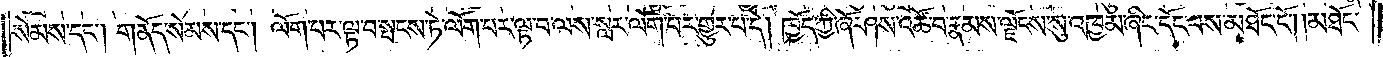སེམས་དང༌། གནོད་སེམས་དང༌། ལོག་པར་ལྟ་བ་སྤངས་ཏེ་ལོག་པར་ལྟ་བ་ལས་སླར་ལོག་པར་གྱུར་བ་དེ། ཁྱོད་ཀྱི་ཞོ་ཤས་འཚོ་བ་རྣམས་ལྗོངས་སུ་འཁྱམ་ཞིང་དོང་བས་མཐོང་ངོ༌། །མཐོང་
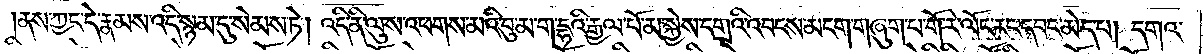ནས་ཀྱང་དེ་རྣམས་འདི་སྙམ་དུ་སེམས་ཏེ། འདི་ནི་ལུས་འཕགས་མའི་བུ་མ་ག་དྷའི་རྒྱལ་པོ་མ་སྐྱེས་དགྲའི་འབངས་མངག་གཞུག་པ་གོ་རེ་ལོང་རང་དབང་མེད་པ། དགའ་
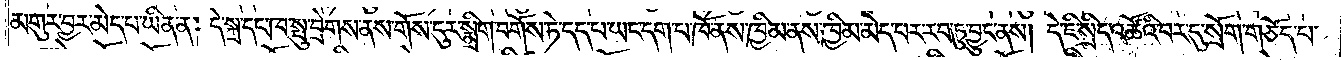མགུར་བྱར་མེད་པ་ཡིན་ན། དེ་སྐྲ་དང་ཁ་སྤུ་བྲེགས་ནས་གོས་ངུར་སྨྲིག་བགོས་ཏེ་དད་པ་ཡང་དག་པ་ཁོ་ནས་ཁྱིམ་ནས་ཁྱིམ་མེད་པར་རབ་ཏུ་བྱུང་ནས། དེ་ཇི་སྲིད་འཚོའི་བར་དུ་སྲོག་གཅོད་པ་
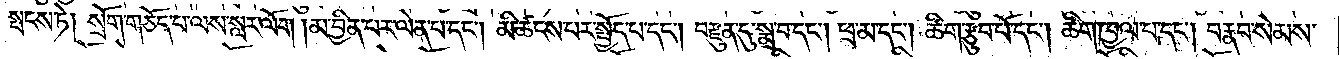སྤངས་ཏེ། སྲོག་གཅོད་པ་ལས་སླར་ལོག །མ་བྱིན་པར་ལེན་པ་དང༌། མི་ཚངས་པར་སྤྱོད་པ་དང༌། བརྫུན་དུ་སྨྲ་བ་དང༌། ཕྲ་མ་དང༌། ཚིག་རྩུབ་པོ་དང༌། ཚིག་ཁྱལ་པ་དང༌། བརྣབ་སེམས་
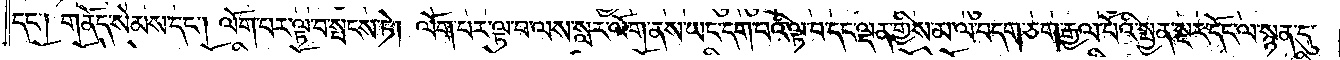དང༌། གནོད་སེམས་དང༌། ལོག་པར་ལྟ་བ་སྤངས་ཏེ། ལོག་པར་ལྟ་བ་ལས་སླར་ལོག་ནས་ཡང་དག་པའི་ལྟ་བ་དང་ལྡན་གྱིས་མ་ལ་བདག་ཅག་རྒྱལ་པོའི་སྤྱན་སྔར་དོང་ལ་སྙན་དུ་
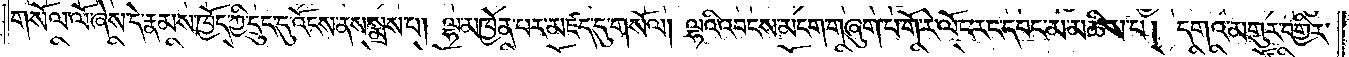གསོལ་ལོ་ཞེས་དེ་རྣམས་ཁྱོད་ཀྱི་དྲུང་དུ་འོངས་ནས་སྨྲས་པ། ལྷ་མཁྱེན་པར་མཛད་དུ་གསོལ། ལྷའི་འབངས་མངག་གཞུག་པ་གོ་རེ་ལོང་རང་དབང་མ་མཆིས་པ། དགའ་མགུར་བགྱིར་
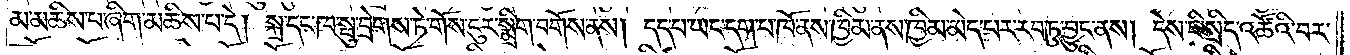མ་མཆིས་པ་ཞིག་མཆིས་པ་དེ། སྐྲ་དང་ཁ་སྤུ་བྲེགས་ཏེ་གོས་ངུར་སྨྲིག་བགོས་ནས། དད་པ་ཡང་དག་པ་ཁོ་ནས་ཁྱིམ་ནས་ཁྱིམ་མེད་པར་རབ་ཏུ་བྱུང་ནས། དེས་ཇི་སྲིད་འཚོའི་བར་
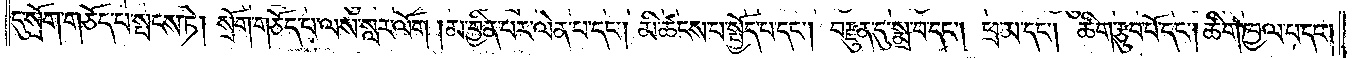དུ་སྲོག་གཅོད་པ་སྤངས་ཏེ། སྲོག་གཅོད་པ་ལས་སླར་ལོག །མ་བྱིན་པར་ལེན་པ་དང༌། མི་ཚངས་པ་སྤྱོད་པ་དང༌། བརྫུན་དུ་སྨྲ་བ་དང༌། ཕྲ་མ་དང༌། ཚིག་རྩུབ་པོ་དང༌། ཚིག་ཁྱལ་པ་དང༌།
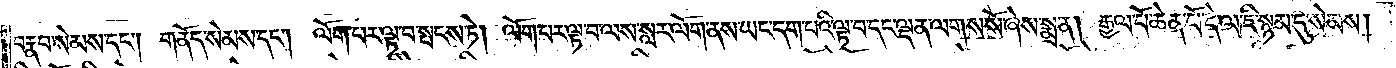བརྣབ་སེམས་དང༌། གནོད་སེམས་དང༌། ལོག་པར་ལྟ་བ་སྤངས་ཏེ། ལོག་པར་ལྟ་བ་ལས་སླར་ལོག་ནས་ཡང་དག་པའི་ལྟ་བ་དང་ལྡན་ལགས་སོ་ཞེས་སྨྲ་ན། རྒྱལ་པོ་ཆེན་པོ་དེ་ལ་ཇི་སྙམ་དུ་སེམས།
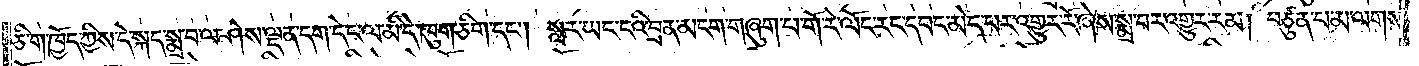ཅི་ག་ཁྱོད་ཀྱིས་དེ་སྐད་སྨྲ་བ་ལ་ཤེས་ལྡན་དག་དེང་ལ་མི་དེ་ཁུག་ཅིག་དང༌། སླར་ཡང་ངའི་བྲན་མངག་གཞུག་པ་གོ་རེ་ལོང་རང་དབང་མེད་པར་འགྱུར་རོ་ཞེས་སྨྲ་བར་འགྱུར་རམ། བཙུན་པ་མ་ལགས་
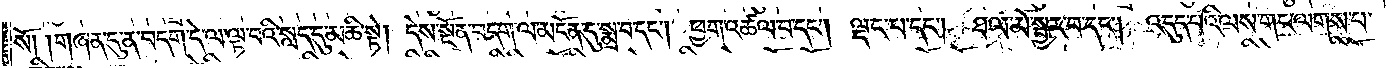སོ། །གཞན་དུ་ན་བདག་དེ་ལ་ལྟ་བའི་སླད་དུ་མཆི་སྟེ། དེས་སྔོན་བདག་ལ་མངོན་དུ་སྨྲ་བ་དང༌། ཕྱག་འཚལ་བ་དང༌། ལྡང་པ་དང༌། ཐལ་མོ་སྦྱར་བ་དང༌། འདུད་པའི་ལས་གང་ལགས་པ་
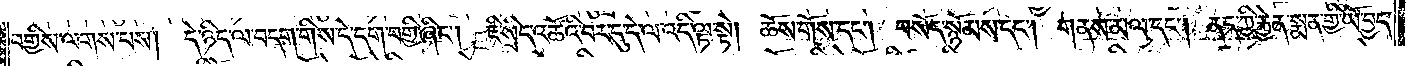བགྱིས་ལགས་པས། དེ་ཉིད་ལ་བདག་གིས་དེ་དག་བགྱི་ཞིང༌། ཇི་སྲིད་འཚོའི་བར་དུ་དེ་ལ་འདི་ལྟ་སྟེ། ཆོས་གོས་དང༌། བསོད་སྙོམས་དང༌། གནས་མལ་དང༌། ནད་ཀྱི་རྐྱེན་སྨན་གྱི་ཡོ་བྱད་
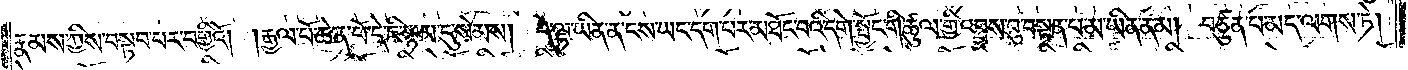རྣམས་ཀྱིས་བསྟབ་པར་བགྱིའོ། །རྒྱལ་པོ་ཆེན་པོ་དེ་ཇི་སྙམ་དུ་སེམས། དེ་ལྟ་ཡིན་ན་ངས་ཡང་དག་པར་མཐོང་བའི་དགེ་སྦྱོང་གི་ཚུལ་གྱི་འབྲས་བུ་བསྟན་པ་མ་ཡིན་ནམ། བཙུན་པ་མད་ལགས་ཏེ།
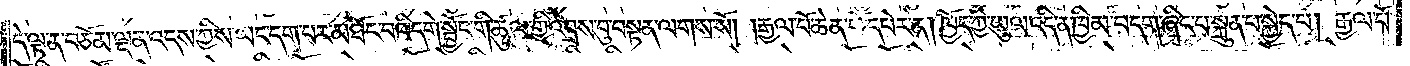དེ་ལྟ་ན་བཅོམ་ལྡན་འདས་ཀྱིས་ཡང་དག་པར་མཐོང་བའི་དགེ་སྦྱོང་གི་ཚུལ་གྱི་འབྲས་བུ་བསྟན་ལགས་སོ། །རྒྱལ་པོ་ཆེན་པོ་དཔེར་ན། ཁྱོད་ཀྱི་མུལ་འདི་ན་ཁྱིམ་བདག་ཞིང་པ་སྐྲུན་པ་སྐྱེད་པ། རྒྱལ་པོ་
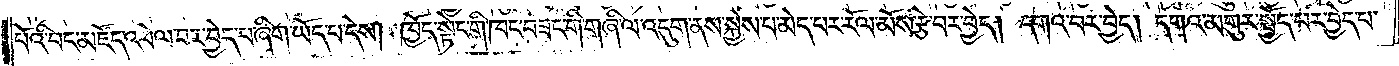པོའི་བང་མཛོད་འཕེལ་བར་བྱེད་པ་ཞིག་ཡོད་པ་དེས། ཁྱོད་སྟེང་གི་ཁང་བཟང་གི་གཞི་ལ་འདུག་ནས་སྐྱེས་པ་མེད་པར་རོལ་མོས་རྩེ་བར་བྱེད། དགའ་བར་བྱེད། དགའ་མགུར་སྤྱོད་པར་བྱེད་པ་
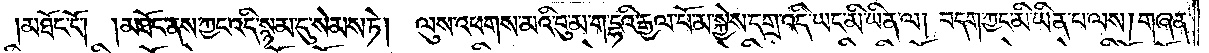།མཐོང་ངོ༌། །མཐོང་ནས་ཀྱང་འདི་སྙམ་དུ་སེམས་ཏེ།<gap>ལུས་འཕགས་མའི་བུ་མ་ག་དྷའི་རྒྱལ་པོ་མ་སྐྱེས་དགྲ་འདི་ཡང་མི་ཡིན་ལ། བདག་ཀྱང་མི་ཡིན་པ་ལས། གཞན་
